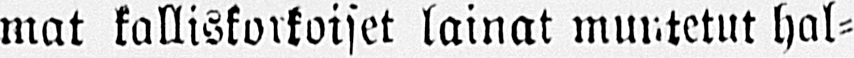mat kalliskorkoiset lainat muntetut hal-
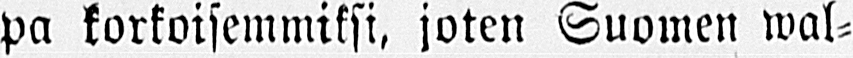pa korkoisemmiksi, joten Suomen wal-
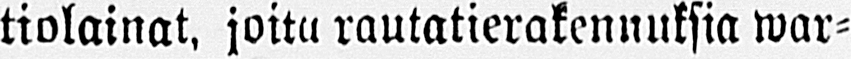tiolainat, joita rautatierakennuksia war-
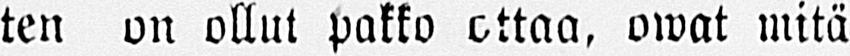ten on ollut pakko ottaa, owat mitä
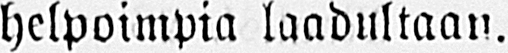helpoimpia laadultaan.
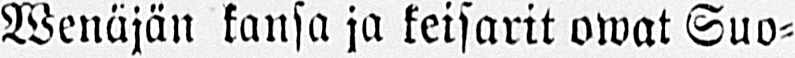Wenäjän kansa ja keisarit owat Suo-
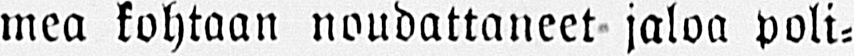mea kohtaan noudattaneet jaloa poli-
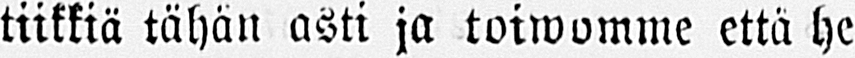tiikkiä tähän asti ja toiwomme että he
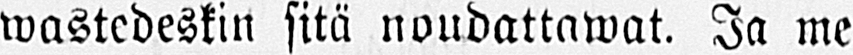wastedeskin sitä noudattawat. Ja me
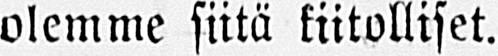olemme siitä kiitolliset.
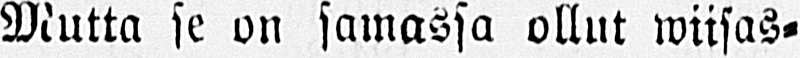Mutta se on samassa ollut wiisasta
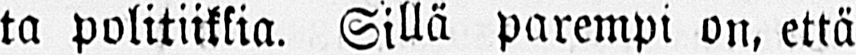ta politiikkia. Sillä parempi on, että
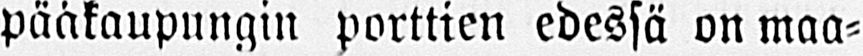pääkaupungin porttien edessä on maa-
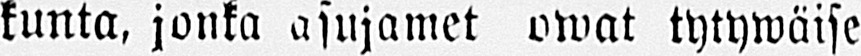kunta, jonka asujamet owat tytywäise
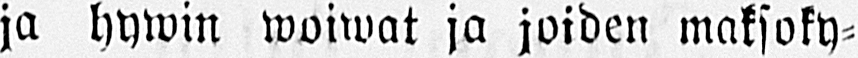ja hywin woiwat ja joiden maksoky-
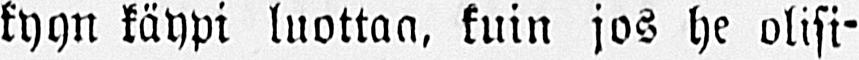kyyn käypi luottaa, kuin jos he olisi-
